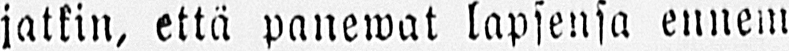jatkin, että panewat lapsensa ennem-
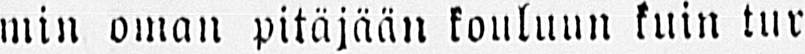min oman pitäjään kouluun kuin tur
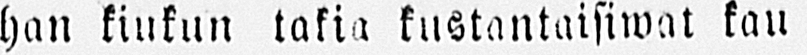han kiukun takia kustantaisiwat kau
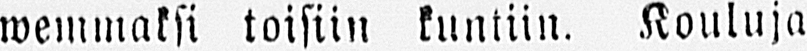wemmaksi toisiin kuntiin. Kouluja
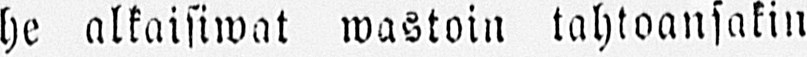he alkaisiwat wastoin tahtoansakin
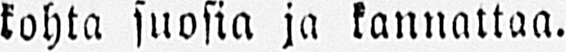kohta suosia ja kannattaa.
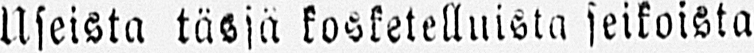Useista tässä kosketelluista seikoista
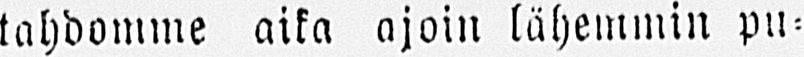tahdomme aika ajoin lähemmin pu-
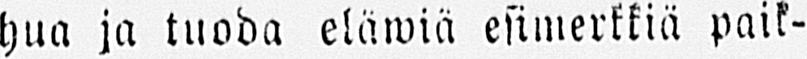hua ja tuoda eläwiä esimerkkiä paik-
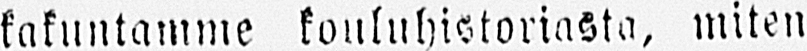kakuntamme kouluhistoriasta, miten
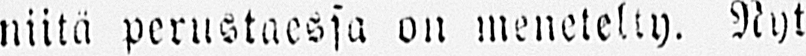niitä perustaessa on menetelty. Nyt
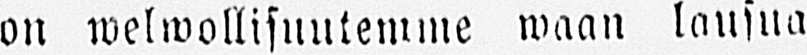on welwollisuntemme waan lausua
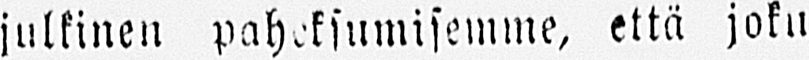julkinen paheksumisemme, että joku
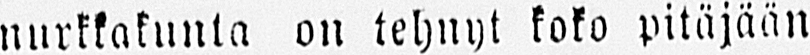nurkkakunta on tehnyt koko pitäjään
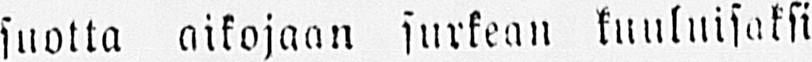suotta aikojaan surkean kuuluisaksi
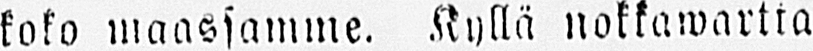koko maassamme. Kyllä nokkawartta
